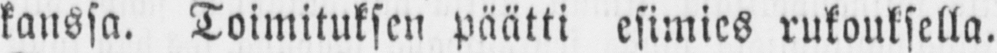kanssa. Toimituksen päätti esimies rukouksella.
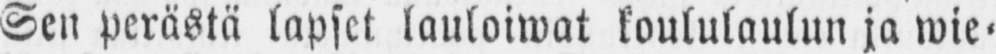Sen perästä lapset lauloiwat koululaulun ja wie-
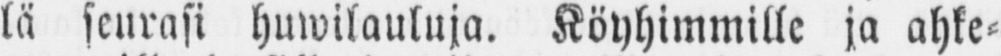lä seurasi huwilauluja. Köyhimmille ja ahke-
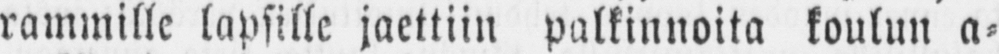rammille lapsille jaettiin palkinnoita koulun a-
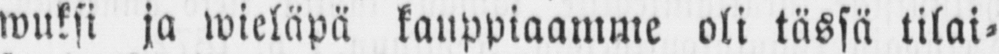wuksi ja wieläpä kauppiaamme oli tässä tilai-
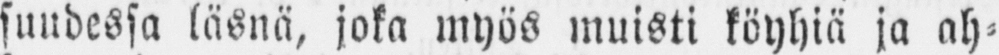suudessa läsnä, joka myös muisti köyhiä ja ah-
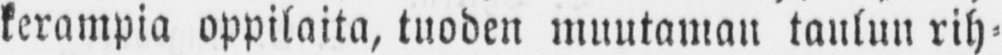kerampia oppilaita, tuoden muutaman taulun rih-
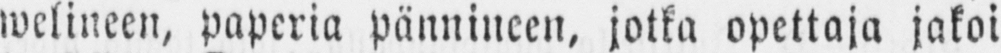welineen, paperia pännineen, jotka opettaja jakoi
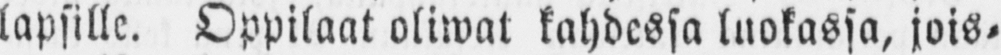lapsille. Oppilaat oliwat kahdessa luokassa, jois-
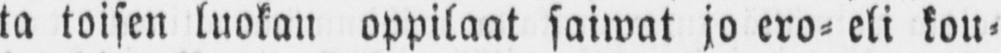ta toisen luokan oppilaat saiwat jo ero- eli kou-
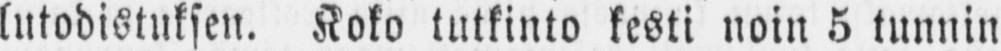lutodistuksen. Koko tutkinto kesti noin 5 tunnin
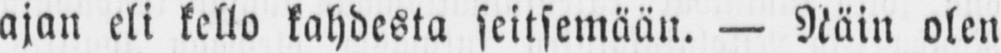ajan eli kello kahdesta seitsemään. — Näin olen
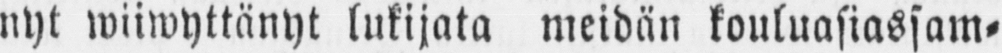nyt wiiwyttänyt lukijata meidän kouluasiassam-
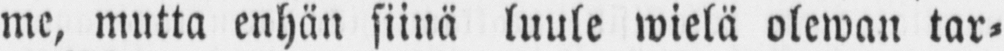me, mutta enhän siinä luule wielä olewan tar-
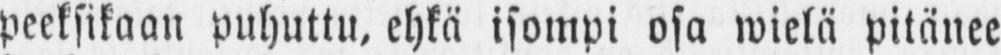peeksikaan puhuttu, ehkä isompi osa wielä pitänee
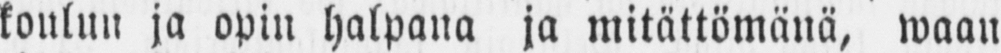koulun ja opin halpana ja mitättömänä, waan
